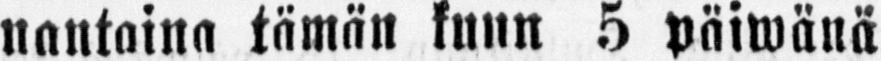nantaina tämän kuun 5 päiwänä
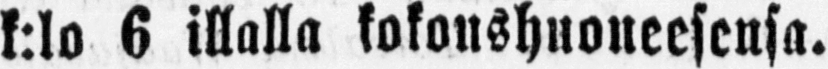k:lo 6 illalla kokoushuoneesensa.
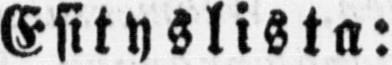Esityslista:
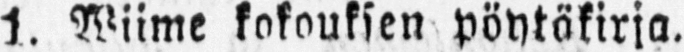1. Wiime kokouksen pöytäkirja.
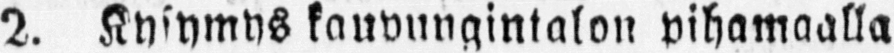2. Kysymys kaupungintalon pihamaalla
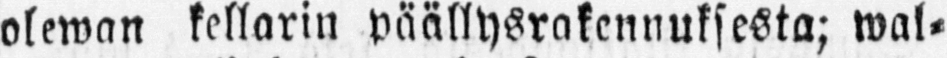olewan kellarin päällysrakennuksesta; wal-
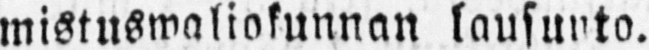mistuswaliokunnan lausunto.
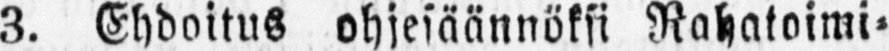3. Ehdoitus ohjesäännöksi Rahatoimi-
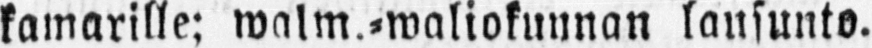kamarille; walm.-waliokunnan lausunto.
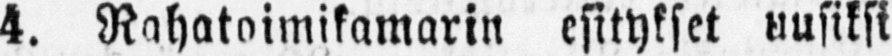4. Rahatoimikamarin esitykset uusiksi
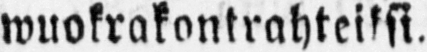wuokrakontrahteiksi.
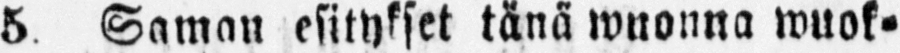5. Saman esitykset tänä wuonna wuok-
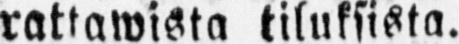rattawista tiluksista.
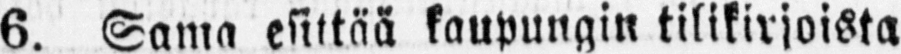6. Sama esittää kaupungin tilikirjoista
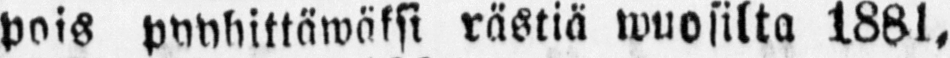pois pyyhittäwäksi rästiä wuosilta 1881,
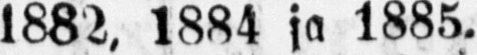1882, 1884 ja 1885.
